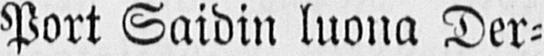Port Saidin luona Der-
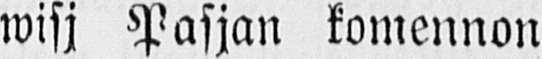wisj Pasjan komennon
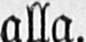alla.
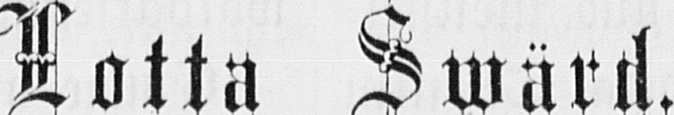Lotta Swärd.
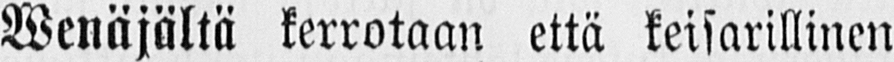Wenäjältä kerrotaan että keisarillinen
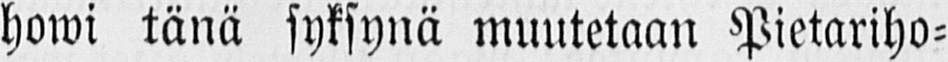howi tänä syksynä muutetaan Pietariho-
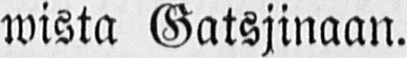wista Gatsjinaan.
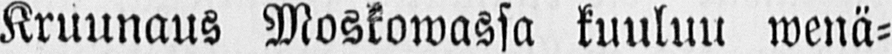Kruunaus Moskowassa kuuluu wenä-
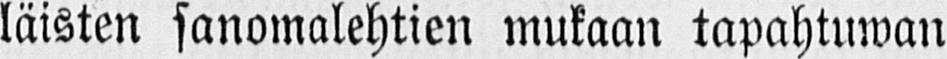läisten sanomalehtien mukaan tapahtuwan
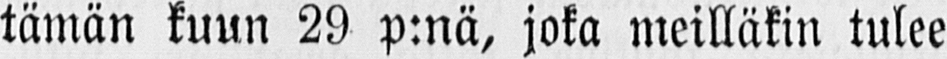tämän kuun 29 p:nä, joka meilläkin tulee
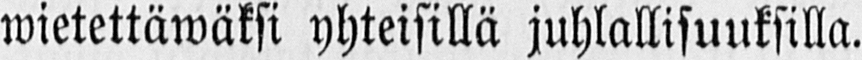wietettäwäksi yhteisillä juhlallisuuksilla.
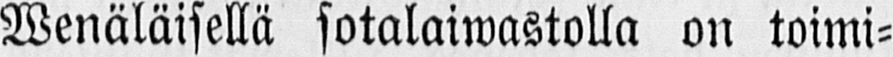Wenäläisellä sotalaiwastolla on toimi-
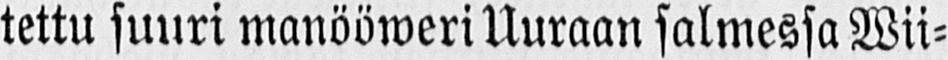tettu suuri manööweri Uuraan salmessa Wii-
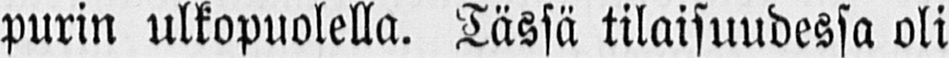purin ulkopuolella. Tässä tilaisuudessa oli
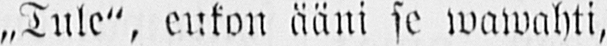„Tule", eukon ääni se wawahti,
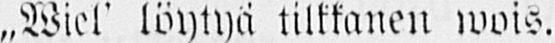„Wiel' löytyä tilkkanen wois.
